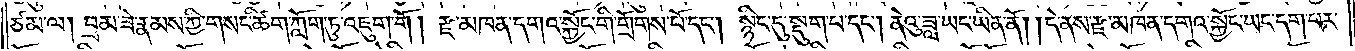ཙམ་ལ། བྲམ་ཟེ་རྣམས་ཀྱི་གསང་ཚིག་ཀློག་ཏུ་འཇུག་གོ། རྫ་མཁན་དགའ་སྐྱོང་གི་གྲོགས་པོ་དང༌། སྙིང་དུ་སྡུག་པ་དང༌། ནེའུ་ཟླ་ཡང་ཡིན་ནོ། །དེ་ནས་རྫ་མཁན་དགའ་སྐྱོང་ཡང་དག་པར་
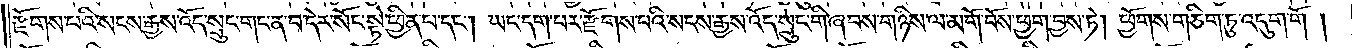རྫོགས་པའི་སངས་རྒྱས་འོད་སྲུང་གང་ན་བ་དེར་སོང་སྟེ་ཕྱིན་པ་དང༌། ཡང་དག་པར་རྫོགས་པའི་སངས་རྒྱས་འོད་སྲུང་གི་ཞབས་གཉིས་ལ་མགོ་བོས་ཕྱག་བྱས་ཏེ། ཕྱོགས་གཅིག་ཏུ་འདུག་གོ།
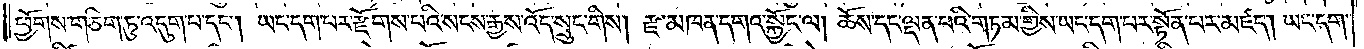ཕྱོགས་གཅིག་ཏུ་འདུག་པ་དང༌། ཡང་དག་པར་རྫོགས་པའི་སངས་རྒྱས་འོད་སྲུང་གིས། རྫ་མཁན་དགའ་སྐྱོང་ལ། ཆོས་དང་ལྡན་པའི་གཏམ་གྱིས་ཡང་དག་པར་སྟོན་པར་མཛད། ཡང་དག་
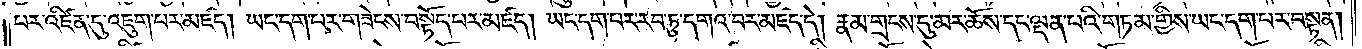པར་འཛིན་དུ་འཇུག་པར་མཛད། ཡང་དག་པར་གཟེངས་བསྟོད་པར་མཛད། ཡང་དག་པར་རབ་ཏུ་དགའ་བར་མཛད་དེ། རྣམ་གྲངས་དུ་མར་ཆོས་དང་ལྡན་པའི་གཏམ་གྱིས་ཡང་དག་པར་བསྟན།
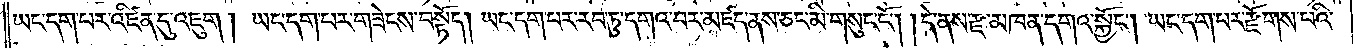ཡང་དག་པར་འཛིན་དུ་འཇུག། ཡང་དག་པར་གཟེངས་བསྟོད། ཡང་དག་པར་རབ་ཏུ་དགའ་བར་མཛད་ནས་ཅང་མི་གསུང་ངོ༌། །དེ་ནས་རྫ་མཁན་དགའ་སྐྱོང༌། ཡང་དག་པར་རྫོགས་པའི་
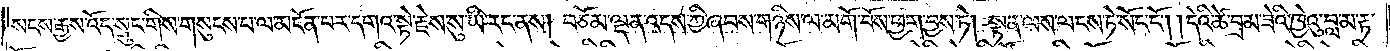སངས་རྒྱས་འོད་སྲུང་གིས་གསུངས་པ་ལ་མངོན་པར་དགའ་སྟེ་རྗེས་སུ་ཡི་རང་ནས། བཅོམ་ལྡན་འདས་ཀྱི་ཞབས་གཉིས་ལ་མགོ་བོས་ཕྱག་བྱས་ཏེ། སྟན་ལས་ལངས་ཏེ་སོང་ངོ༌། །དེའི་ཚེ་བྲམ་ཟེའི་ཁྱེའུ་བླ་མ་རྟ་
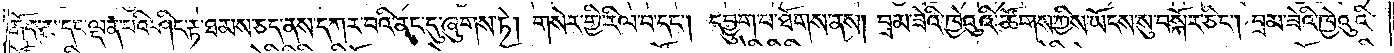རྒོད་མ་དང་ལྡན་པའི་ཤིང་རྟ་ཐམས་ཅད་ནས་དཀར་བའི་ནང་དུ་ཞུགས་ཏེ། གསེར་གྱི་རིལ་བ་དང༌། དབྱུག་པ་ཐོགས་ནས། བྲམ་ཟེའི་ཁྱེའུའི་ཚོགས་ཀྱིས་ཡོངས་སུ་བསྐོར་ཅིང༌། བྲམ་ཟེའི་ཁྱེའུའི་
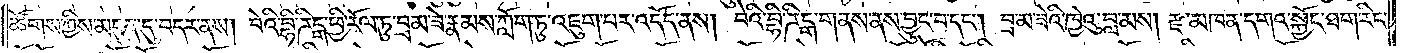ཚོགས་ཀྱིས་མདུན་དུ་བདར་ནས། བེའི་བྷི་ཌིངྒ་ཕྱི་རོལ་ཏུ་བྲམ་ཟེ་རྣམས་ཀློག་ཏུ་འཇུག་པར་འདོད་ནས། བེའི་བྷི་ཌིངྒ་གནས་ནས་བྱུང་བ་དང༌། བྲམ་ཟེའི་ཁྱེའུ་བླ་མས། རྫ་མཁན་དགའ་སྐྱོང་ཐག་རིང་
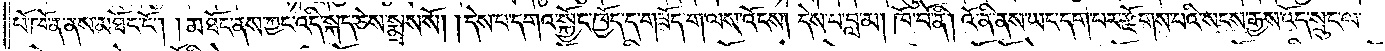པོ་ཁོ་ན་ནས་མཐོང་ངོ༌། །མཐོང་ནས་ཀྱང་འདི་སྐད་ཅེས་སྨྲས་སོ། །དེས་པ་དགའ་སྐྱོང་ཁྱོད་ད་གཟོད་ག་ལས་འོངས། དེས་པ་བླ་མ། ཁོ་བོ་ནི། འོ་ནི་ནས་ཡང་དག་པར་རྫོགས་པའི་སངས་རྒྱས་འོད་སྲུང་ལ་
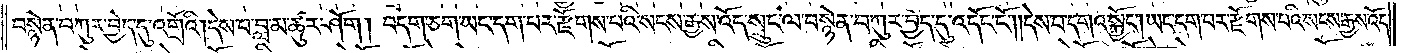བསྙེན་བཀུར་བྱེད་དུ་འགྲོའི། དེས་པ་བླ་མ་ཚུར་ཤོག །བདག་ཅག་ཡང་དག་པར་རྫོགས་པའི་སངས་རྒྱས་འོད་སྲུང་ལ་བསྙེན་བཀུར་བྱེད་དུ་འདོང་ངོ༌། །དེས་པ་དགའ་སྐྱོང༌། ཡང་དག་པར་རྫོགས་པའི་སངས་རྒྱས་འོད་
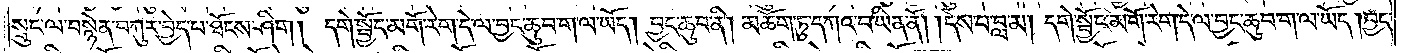སྲུང་ལ་བསྙེན་བཀུར་བྱེད་པ་ཐོངས་ཤིག །དགེ་སྦྱོང་མགོ་རེག་དེ་ལ་བྱང་ཆུབ་ག་ལ་ཡོད། བྱང་ཆུབ་ནི། མཆོག་ཏུ་དཀའ་བ་ཡིན་ནོ། །དེས་པ་བླ་མ། དགེ་སྦྱོང་མགོ་རེག་དེ་ལ་བྱང་ཆུབ་ག་ལ་ཡོད། །བྱང་
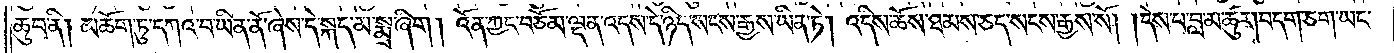ཆུབ་ནི། མཆོག་ཏུ་དཀའ་བ་ཡིན་ནོ་ཞེས་དེ་སྐད་མ་སྨྲ་ཞིག། འོན་ཀྱང་བཅོམ་ལྡན་འདས་དེ་ཉིད་སངས་རྒྱས་ཡིན་ཏེ། འདིས་ཆོས་ཐམས་ཅད་སངས་རྒྱས་སོ། །དེས་པ་བླ་མ་ཚུར། བདག་ཅག་ཡང་
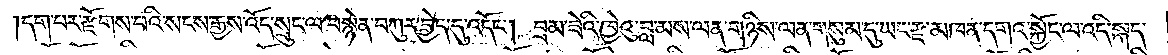།དག་པར་རྫོགས་པའི་སངས་རྒྱས་འོད་སྲུང་ལ་བསྙེན་བཀུར་བྱེད་དུ་འདོང༌། བྲམ་ཟེའི་ཁྱེའུ་བླ་མས་ལན་གཉིས་ལན་གསུམ་དུ་ཡང་རྫ་མཁན་དགའ་སྐྱོང་ལ་འདི་སྐད་
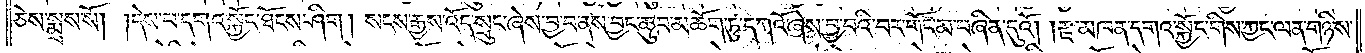ཅེས་སྨྲས་སོ། །དེས་པ་དགའ་སྐྱོང་ཐོངས་ཤིག །སངས་རྒྱས་འོད་སྲུང་ཞེས་བྱ་བ་ནས་བྱང་ཆུབ་མཆོག་ཏུ་དཀའོ་ཞེས་བྱ་བའི་བར་གོང་མ་བཞིན་དུའོ། །རྫ་མཁན་དགའ་སྐྱོང་གིས་ཀྱང་ལན་གཉིས་
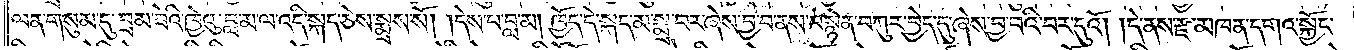ལན་གསུམ་དུ་བྲམ་ཟེའི་ཁྱེའུ་བླ་མ་ལ་འདི་སྐད་ཅེས་སྨྲས་སོ། །དེས་པ་བླ་མ། ཁྱོད་དེ་སྐད་མ་སྨྲ་བར་ཞེས་བྱ་བ་ནས་བསྙེན་བཀུར་བྱེད་དུ་ཞེས་བྱ་བའི་བར་དུའོ། །དེ་ནས་རྫ་མཁན་དགའ་སྐྱོང་
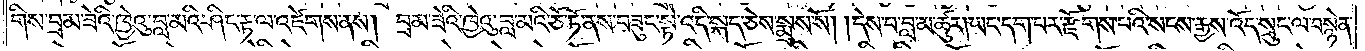གིས་བྲམ་ཟེའི་ཁྱེའུ་བླ་མའི་ཤིང་རྟ་ལ་འཛེགས་ནས། བྲམ་ཟེའི་ཁྱེའུ་བླ་མའི་ཅོ་ཏོ་ནས་བཟུང་སྟེ་འདི་སྐད་ཅེས་སྨྲས་སོ། །དེས་པ་བླ་མ་ཚུར།ཡང་དག་པར་རྫོགས་པའི་སངས་རྒྱས་འོད་སྲུང་ལ་བསྙེན་
